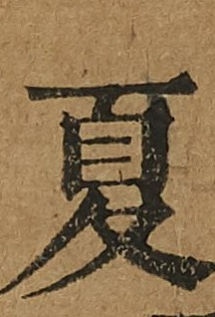夏
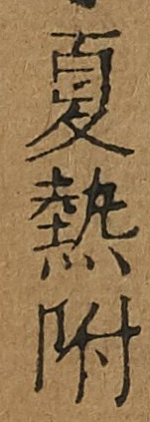夏熱附
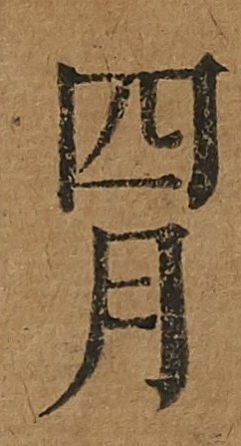四月
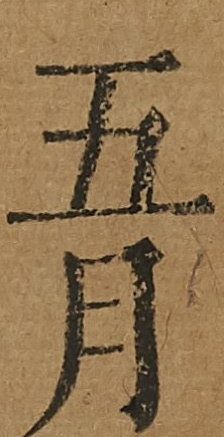五月
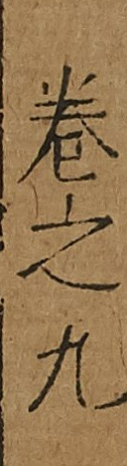卷之九
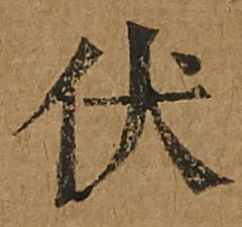伏
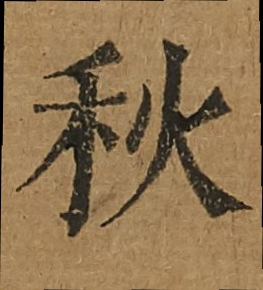秋
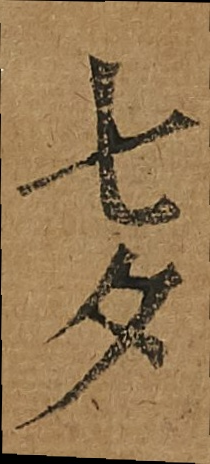七夕
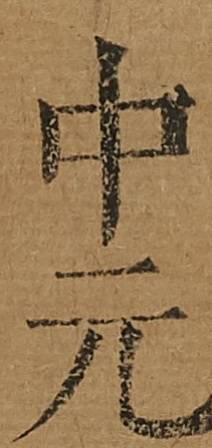中元
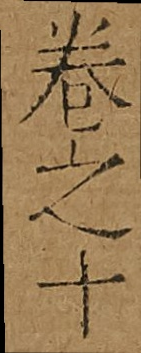卷之十
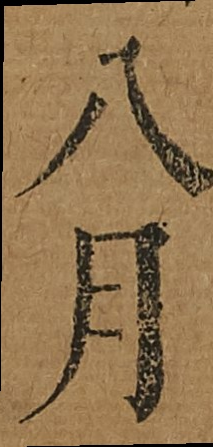八月
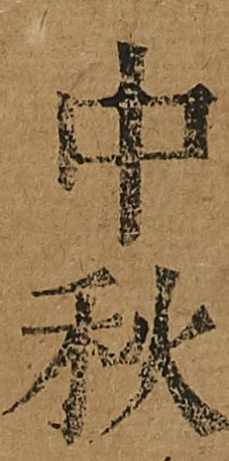中秋
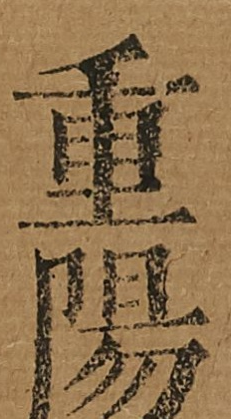重陽
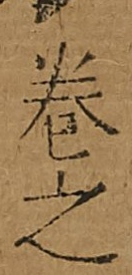卷之
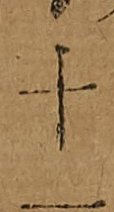十一
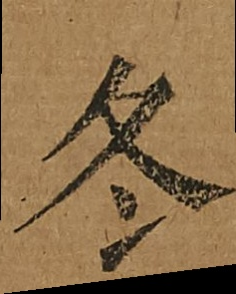冬
